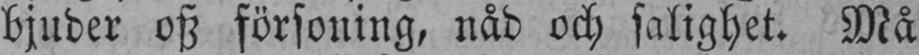bjuder osz försoning, nåd och salighet. Må
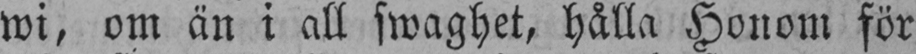wi, om än i all swaghet, hålla Honom för
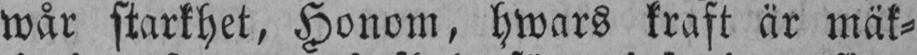wår starkhet, Honom, hwars kraft är mäk-
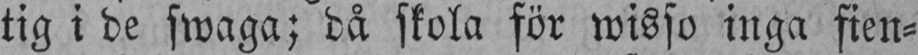tig i de swaga; då skola för wisso inga fien-
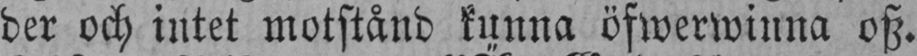der och intet motstånd kunna öfwerwinna osz.
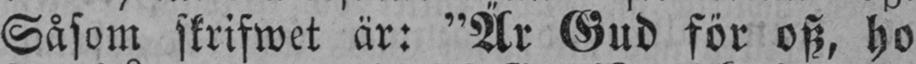Såsom skrifwet är: "Är Gud för osz, ho
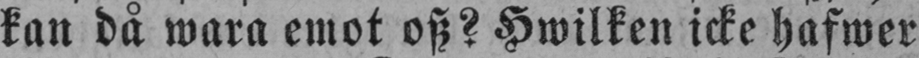kan då wara emot osz? Hwilken icke hafwer
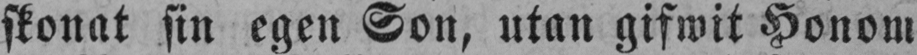skonat sin egen Son, utan gifwit Honom
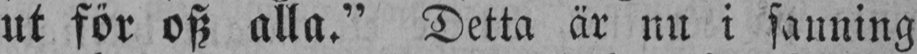ut för osz alla." Detta är nu i sanning
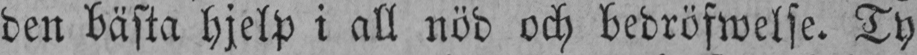den bästa hjelp i all nöd och bedröfwelse. Ty
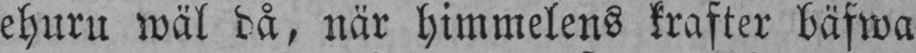ehuru wäl då, när himmelens krafter bäfwa
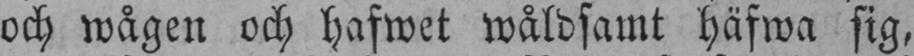och wågen och hafwet wåldsamt häfwa sig,
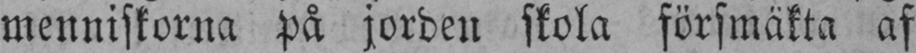menniskorna på jorden skola försmäkta af
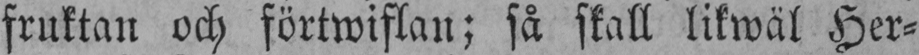fruktan och förtwiflan; så skall likwäl Her-
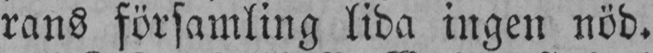rans församling lida ingen nöd.
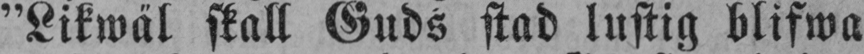"Likwäl skall Guds stad lustig blifwa
